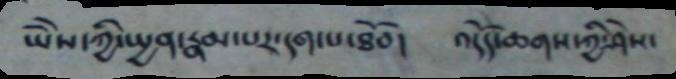ཡཻས་ཀྱི་སྤྱན་རྣམ་པར་དག་པ་ཐོབ། འདོད་ཆགས་ཀྱི་ཤེས་
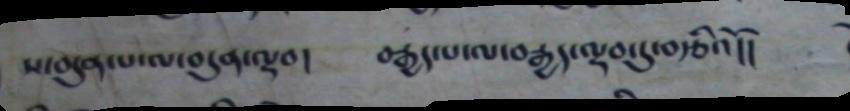ས་བདུན་པ་ལ་བདུན་ལྡབ། བརྒྱད་པ་ལ་བརྒྱད་ལྡབ་དུ་བརྩིའོ།།
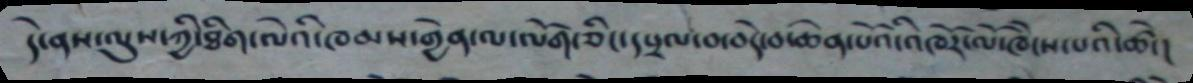དེ་ནས་ལུས་ཀྱི་ཐིག་ལེའི་ཁམས་གྱེན་ལ་ལོག་ཅིང་དཔྲལ་བ་བདེ་བ་ཆེན་པོའི་འཁོར་ལོ་ཁེངས་པའི་ཚེ་།
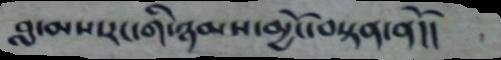བླ་མས་རང་གི་ཉམས་མྱོང་བསྟན་ནོ།།
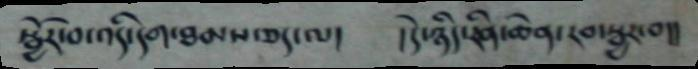སྦྱོར་བ་འདི་དག་ཐམས་ཅད་ལ། །དེ་ཉིད་རིན་ཆེན་རབ་སྦྱར་བ།།
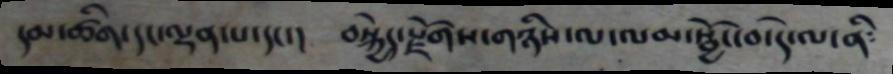དམ་ཚིག་དང་ལྡན་པ་དང་། བསྐྱེད་སྫོགས་གཉིས་ལ་ལམ་སྦྱོང་བ་དེ་ལ་ནི༴
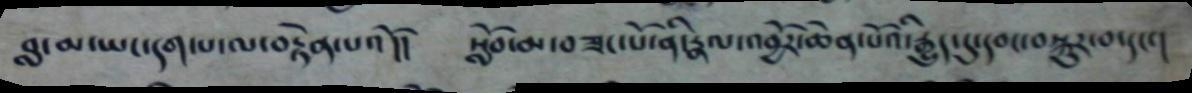བླ་མ་ཡང་དག་པ་ལ་བརྟེན་པའོ།། སློབ་མ་བཟང་པོ་ནི་རྣལ་འབྱོར་ཆེན་པོའི་རྒྱུད་དུ་དབང་བསྐུར་བ་དང་།
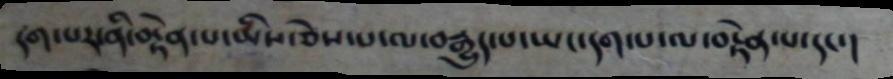དག་པར་ནི་བརྟེན་པ་ཡིས་ཅེས་པ་ལ་བརྒྱུད་པ་ཡང་དག་པ་ལ་བརྟེན་པ་དང་།
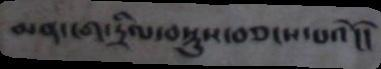མན་ངག་དྲིལ་བསྡུས་བཅངས་པའོ།།
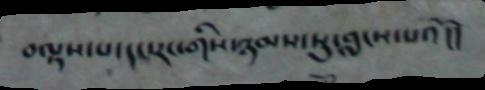བལྟས་པ་དང་རང་གིས་ཉམས་སུ་བླངས་པའོ།།
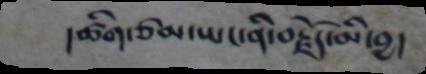།ཚིག་ཙམ་ཡང་ནི་བརྗོད་མི་བྱ།
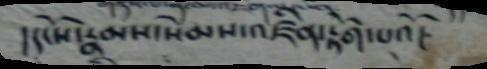།དངོས་རྣམས་སེམས་འཛིན་རྟོག་པའོ།
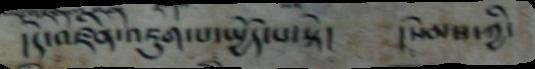།དེ་འཛིན་འཇུག་པ་སྤྱོད་པ་སྟེ། །སེམས་ཀྱི་
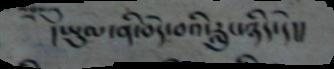།ཡུལ་ནི་བདེ་བའི་རླུང་ཉིད་དེ།།
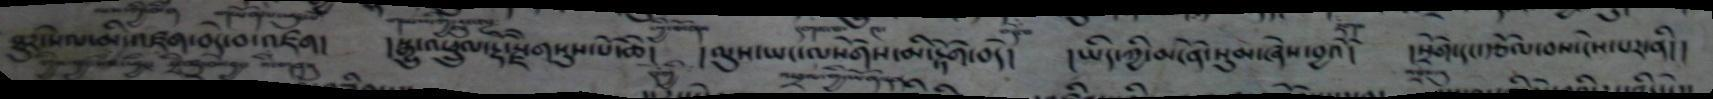ཐུར་སེལ་མི་འཛག་བདེ་བ་འཛག།  །སྒྱུ་འཕྲུལ་རྡོ་རྗེ་གསུས་པོ་ཆེ།    །ལུས་ཡང་ལསོགས་མི་རྟོག་བདེ།   །ཡིད་ཀྱི་མངོན་སུམ་ཞེས་བྱའོ།  །སྲོག་དང་རྩོལ་བས་ངེས་པར་ནི།།
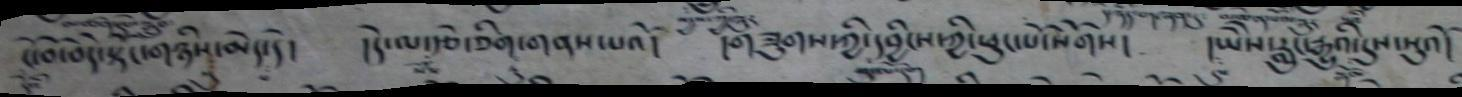ངོ་བོ་བདེ་སྟོང་གཉིས་མེད་དེ།   །དེ་ལ་རྩེ་ཅིག་གནས་པའོ།   །གཟུགས་ཀྱི་དབྱིངས་ཀྱི་ཕུང་པོ་སོགས།   །ཡེེས་རླུང་རྒྱུའི་དུས་སུའོ།
